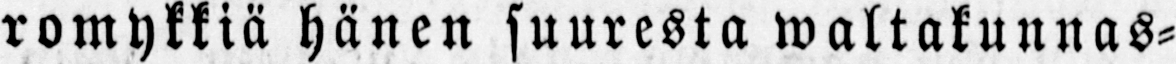romykkiä hänen suuresta waltakunnas-
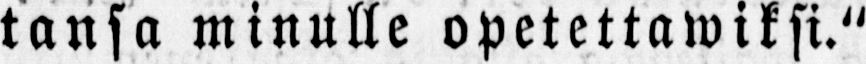tansa minulle opetettawiksi."
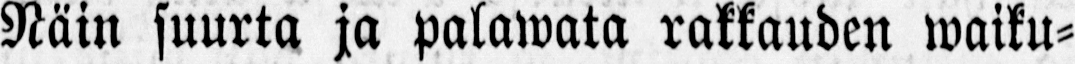Näin suurta ja palawata rakkauden waiku-
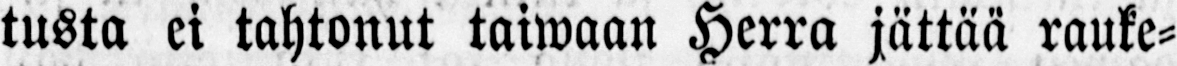tusta ei tahtonut taiwaan Herra jättää rauke-
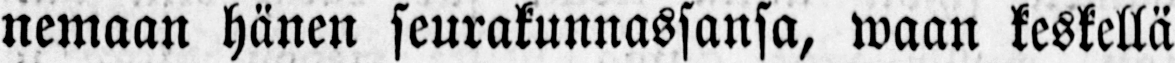nemaan hänen seurakunnassansa, waan keskellä
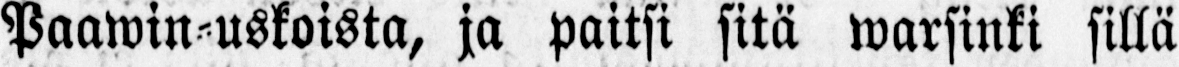Paawin-uskoista, ja paitsi sitä warsinki sillä
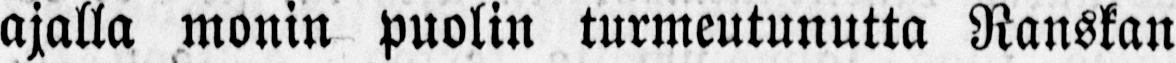ajalla monin puolin turmeutunutta Ranskan
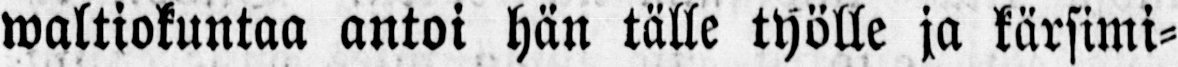waltiokuntaa antoi hän tälle työlle ja kärsimi-
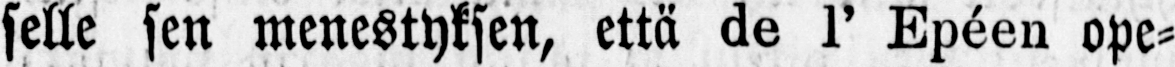selle sen menestyksen, että de l' Epéen ope-
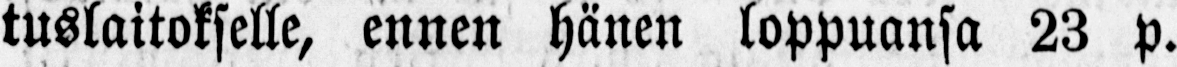tuslaitokselle, ennen hänen loppuansa 23 p.
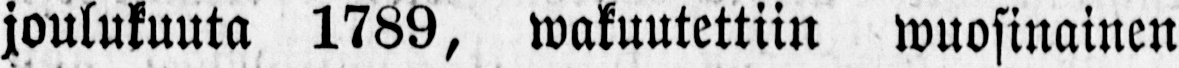joulukuuta 1789, wakuutettiin wuosinainen
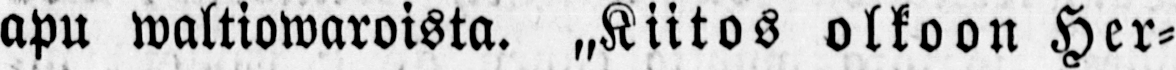apu waltiowaroista. „Kiitos olkoon Her-
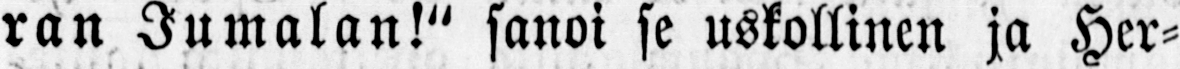ran Jumalan!" sanoi se uskollinen ja Her-
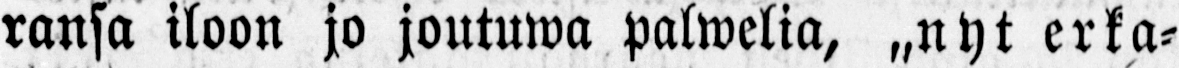ransa iloon jo joutuwa palwelia, „nyt erka-
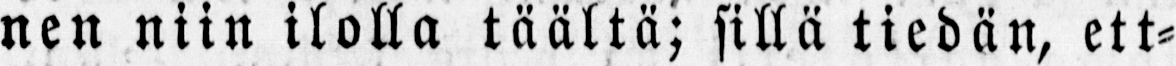nen niin ilolla täältä; sillä tiedän, ett-
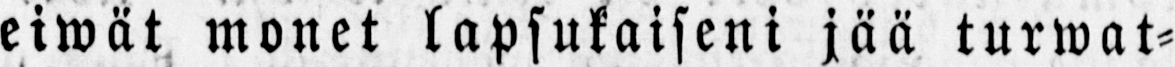eiwät monet lapsukaiseni jää turwat-
